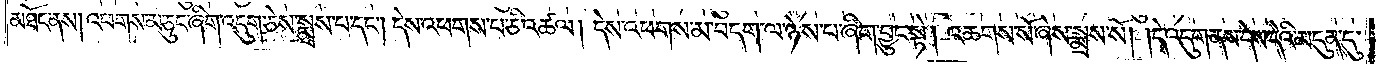མཐོང་ནས། འཕགས་མ་ཅུང་ཞིག་འདུག་ཅེས་སྨྲས་པ་དང༌། དེས་འཕགས་པ་ཅི་འཚལ། དེས་འཕགས་མ་བདག་ལ་ཉེས་པ་ཞིག་བྱུང་སྟེ། འཆགས་སོ་ཞེས་སྨྲས་སོ། །དེ་འདུག་ནས་དེས་དེའི་མདུན་དུ་
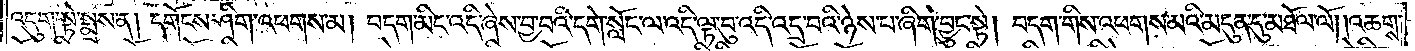འདུག་སྟེ་སྨྲས་ན། དགོངས་ཤིག་འཕགས་མ། བདག་མིང་འདི་ཞེས་བྱ་བའི་དགེ་སློང་ལ་འདི་ལྟ་བུ་འདི་འདྲ་བའི་ཉེས་པ་ཞིག་བྱུང་སྟེ། བདག་གིས་འཕགས་མའི་མདུན་དུ་མཐོལ་ལོ། །འཆགས་
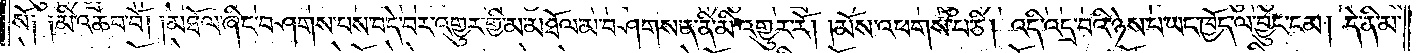སོ༑ ༑མི་འཆབ་བོ། །མཐོང་ཞིང་བཤགས་བས་བདེ་བར་འགྱུར་གྱི་མ་མཐོལ་མ་བཤགས་ན་ནི་མི་འགྱུར་རོ། །མོས་འཕགས་པ་ཅི། འདི་འདྲ་བའི་ཉེས་པ་ཡང་ཁྱོད་ལ་བྱུང་ངམ། དེ་ནི་མ་
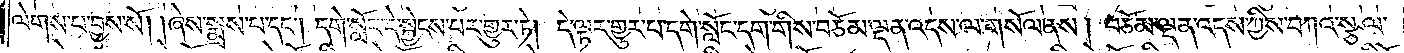ལེགས་པ་བྱས་སོ། །ཞེས་སྨྲས་པ་དང༌། དགེ་སློང་དེ་སྐྱེངས་པར་གྱུར་ཏེ། དེ་ལྟར་གྱུར་པ་དགེ་སློང་དག་གིས་བཅོམ་ལྡན་འདས་ལ་གསོལ་ནས། བཅོམ་ལྡན་འདས་ཀྱིས་བཀའ་སྩལ་
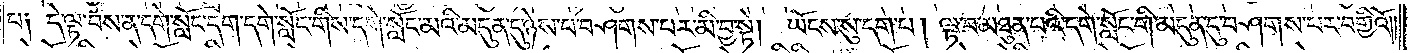པ། དེ་ལྟ་བས་ན་དགེ་སློང་དག་དགེ་སློང་གིས་དགེ་སློང་མའི་མདུན་དུ་ཉེས་པ་བཤགས་པར་མི་བྱ་སྟེ། ཡོངས་སུ་དག་པ། ལྟ་བ་མཐུན་པའི་དགེ་སློང་གི་མདུན་དུ་བཤགས་པར་བགྱིའོ། །
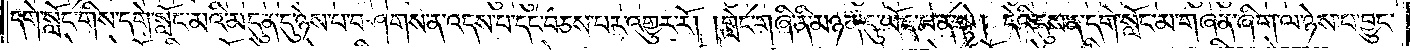དགེ་སློང་གིས་དགེ་སློང་མའི་མདུན་དུ་ཉེས་པ་བཤགས་ན་འདས་པ་དང་བཅས་པར་འགྱུར་རོ། །གླེང་གཞི་ནི་མཉན་དུ་ཡོད་པ་ན་སྟེ། དེའི་དུས་ན་དགེ་སློང་མ་གཞན་ཞིག་ལ་ཉེས་པ་བྱུང་
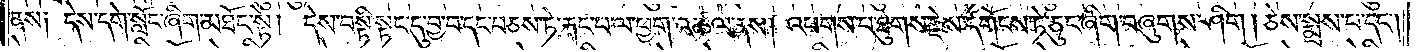ནས། དེས་དགེ་སློང་ཞིག་མཐོང་སྟེ། དེས་བསྟི་སྟང་དུ་བྱ་བ་དང་བཅས་ཏེ་རྐང་པ་ལ་ཕྱག་འཚལ་ནས། འཕགས་པ་ཐུགས་རྗེས་དགོངས་ཏེ་ཅུང་ཞིག་བཞུགས་ཤིག །ཅེས་སྨྲས་པ་དང༌།
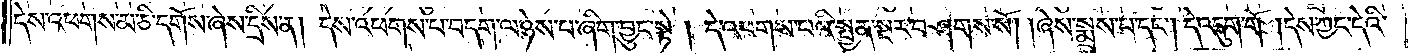དེས་འཕགས་མ་ཅི་དགོས་ཞེས་དྲིས་ན། དེས་འཕགས་པ་བདག་ལ་ཉེས་པ་ཞིག་བྱུང་སྟེ། དེ་འཕགས་པའི་སྤྱན་སྔར་བཤགས་སོ། །ཞེས་སྨྲས་པ་དང༌། དེ་འདུག་གོ །དེས་ཀྱང་དེའི་
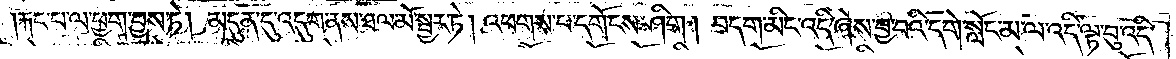རྐང་པ་ལ་ཕྱག་བྱས་ཏེ། མདུན་དུ་འདུག་ནས་ཐལ་མོ་སྦྱར་ཏེ། འཕགས་པ་དགོངས་ཤིག །བདག་མིང་འདི་ཞེས་བྱ་བའི་དགེ་སློང་མ་ལ་འདི་ལྟ་བུ་འདི་
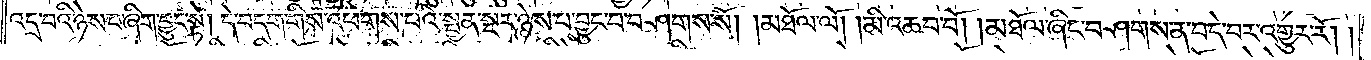འདྲ་བའི་ཉེས་པ་ཞིག་བྱུང་སྟེ། དེ་བདག་གིས་འཕགས་པའི་སྤྱན་སྔར་ཉེས་པ་བྱུང་བ་བཤགས་སོ། །མཐོལ་ལོ། །མི་འཆབ་བོ། །མཐོལ་ཞིང་བཤགས་ན་བདེ་བར་འགྱུར་རོ། །
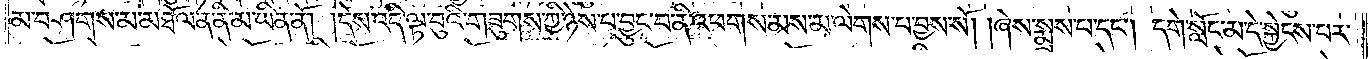མ་བཤགས་མ་མཐོལ་ན་ནི་མ་ཡིན་ནོ། །དེས་འདི་ལྟ་བུའི་གཟུགས་ཀྱི་ཉེས་པ་བྱུང་བ་ནི་འཕགས་མས་མ་ལེགས་པ་བྱས་སོ། །ཞེས་སྨྲས་པ་དང༌། དགེ་སློང་མ་དེ་སྐྱེངས་པར་
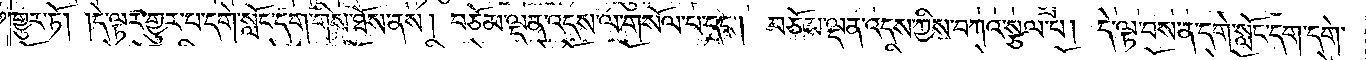གྱུར་ཏོ། །དེ་ལྟར་གྱུར་པ་དགེ་སློང་དག་གིས་ཐོས་ནས། བཅོམ་ལྡན་འདས་ལ་གསོལ་པ་དང༌། བཅོམ་ལྡན་འདས་ཀྱིས་བཀའ་སྩལ་པ། དེ་ལྟ་བས་ན་དགེ་སློང་དག་དགེ་
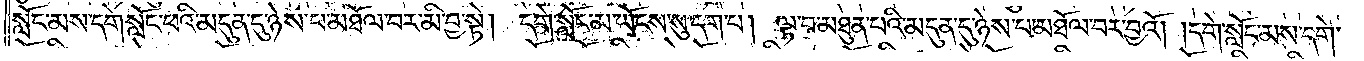སློང་མས་དགེ་སློང་ཕའི་མདུན་དུ་ཉེས་པ་མཐོལ་བར་མི་བྱ་སྟེ། དགེ་སློང་མ་ཡོངས་སུ་དག་པ་།ལྟ་བ་མཐུན་པའི་མདུན་དུ་ཉེས་པ་མཐོལ་བར་བྱའོ། །དགེ་སློང་མས་དགེ་
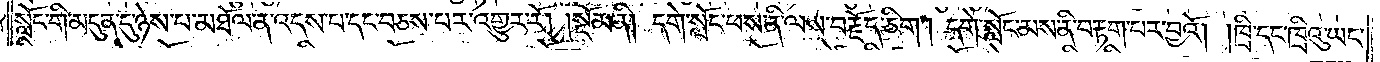སློང་གི་མདུན་དུ་ཉེས་པ་མཐོལ་ན་འདས་པ་དང་བཅས་པར་འགྱུར་རོ།    །སྡོམ་ནི། དགེ་སློང་ཕས་ནི་ལས་བརྗོད་ཅིག །དགེ་སློང་མས་ནི་བརྟག་པར་བྱའོ། །ཁྲི་དང་ཁྲིའུ་ཡང་
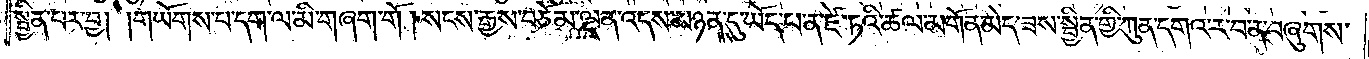སྦྱིན་པར་བྱ། གཡོགས་པ་དག་ལ་མི་གཞག་གོ །སངས་རྒྱས་བཅོམ་ལྡན་འདས་མཉན་དུ་ཡོད་པ་ན་ཛེ་ཏའི་ཚལ་མགོན་མེད་ཟས་སྦྱིན་གྱི་ཀུན་དགའ་ར་བ་ན་བཞུགས་
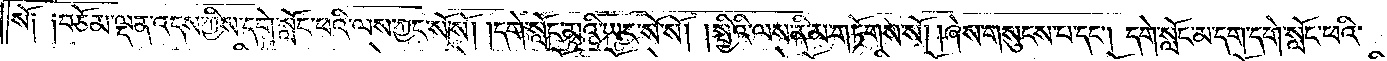སོ༑ ༑བཅོམ་ལྡན་འདས་ཀྱིས་དགེ་སློང་ཕའི་ལས་ཀྱང་སོ་སོ། །དགེ་སློང་མའི་ཡང་སོ་སོ། །སྤྱིའི་ལས་ནི་མ་གཏོགས་སོ། །ཞེས་གསུངས་པ་དང༌། དགེ་སློང་མ་དག་དགེ་སློང་ཕའི་
